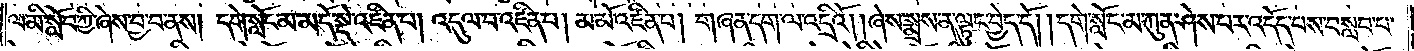ལ་མི་སློབ་ཀྱི་ཞེས་བྱ་བ་ནས། དགེ་སློང་མ་མདོ་སྡེ་འཛིན་པ། འདུལ་བ་འཛིན་པ། མ་མོ་འཛིན་པ། གཞན་དག་ལ་འདྲིའོ། །ཞེས་སྨྲས་ན་ལྟུང་བྱེད་དོ། །དགེ་སློང་མ་ཀུན་ཤེས་པར་འདོད་པས་བསླབ་པ་
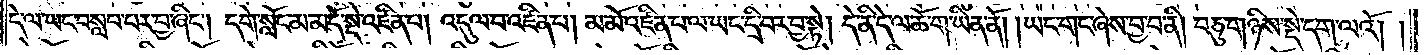དེ་ལ་ཡང་བསླབ་པར་བྱ་ཞིང༌། དགེ་སློང་མ་མདོ་སྡེ་འཛིན་པ། འདུལ་བ་འཛིན་པ། མ་མོ་འཛིན་པ་ལ་ཡང་དྲི་བར་བྱ་སྟེ། དེ་ནི་དེ་ལ་ཆོ་ག་ཡིན་ནོ། །ཡང་གང་ཞེས་བྱ་བ་ནི། བཅུ་གཉིས་སྡེ་དག་ལའོ། །
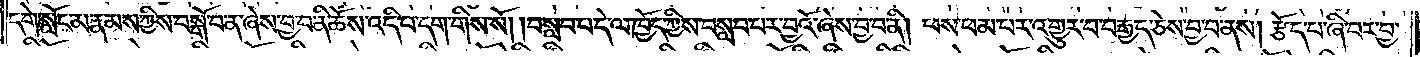དགེ་སློང་མ་རྣམས་ཀྱིས་བསྒོ་བ་ན་ཞེས་བྱ་བ་ནི་ཆོས་འདི་པ་དག་གིས་སོ། །བསླབ་པ་དེ་ལ་ཁྱོད་ཀྱིས་བསླབ་པར་བྱའོ་ཞེས་བྱ་བ་ནི། ཕས་ཕམ་པར་འགྱུར་བ་བརྒྱད་ཅེས་བྱ་བ་ནས། རྩོད་པ་ཞི་བར་བྱ་
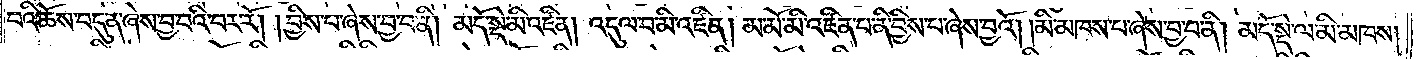བའི་ཆོས་བདུན་ཞེས་བྱ་བའི་བར་རོ། །བྱིས་པ་ཞེས་བྱ་བ་ནི། མདོ་སྡེ་མི་འཛིན། འདུལ་བ་མི་འཛིན། མ་མོ་མི་འཛིན་པ་ནི་བྱིས་པ་ཞེས་བྱའོ། །མི་མཁས་པ་ཞེས་བྱ་བ་ནི། མདོ་སྡེ་ལ་མི་མཁས།
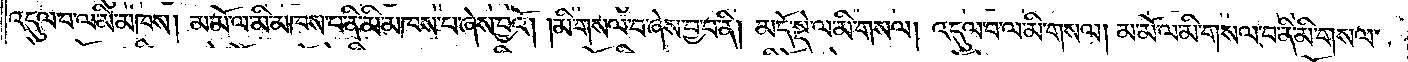འདུལ་བ་ལ་མི་མཁས། མ་མོ་ལ་མི་མཁས་པ་ནི་མི་མཁས་པ་ཞེས་བྱའོ། །མི་གསལ་བ་ཞེས་བྱ་བ་ནི། མདོ་སྡེ་ལ་མི་གསལ། འདུལ་བ་ལ་མི་གསལ། མ་མོ་ལ་མི་གསལ་བ་ནི་མི་གསལ་
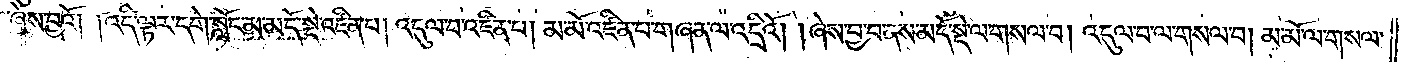བ་ཞེས་བྱའོ། །འདི་ལྟར་དགེ་སློང་མ་མདོ་སྡེ་འཛིན་པ། འདུལ་བ་འཛིན་པ། མ་མོ་འཛིན་པ་གཞན་ལ་འདྲིའོ། །ཞེས་བྱ་བ་ནས་མདོ་སྡེ་ལ་གསལ་བ། འདུལ་བ་ལ་གསལ་བ། མ་མོ་ལ་གསལ་
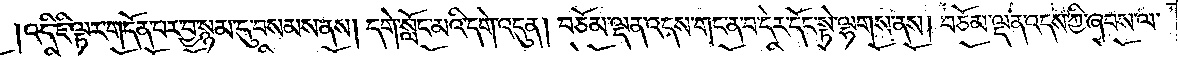འདི་ཇི་ལྟར་གདོན་པར་བྱ་སྙམ་དུ་བསམས་ནས། དགེ་སློང་མའི་དགེ་འདུན། བཅོམ་ལྡན་འདས་གང་ན་བ་དེར་དོང་སྟེ་ལྷགས་ནས། བཅོམ་ལྡན་འདས་ཀྱི་ཞབས་ལ་
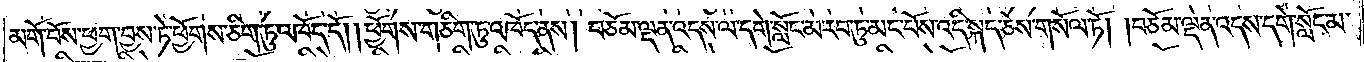མགོ་བོས་ཕྱག་བྱས་ཏེ་ཕྱོགས་ཅིག་ཏུ་འཁོད་དོ། །ཕྱོགས་གཅིག་ཏུ་འཁོད་ནས། བཅོམ་ལྡན་འདས་ལ་དགེ་སློང་མ་རབ་ཏུ་མང་པོས་འདི་སྐད་ཅེས་གསོལ་ཏོ། །བཅོམ་ལྡན་འདས་དགེ་སློང་མ་
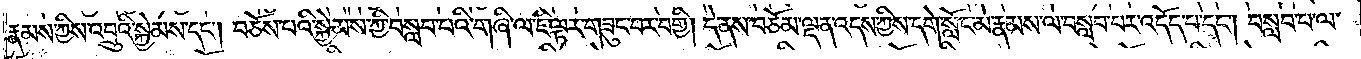རྣམས་ཀྱིས་འབྲུའི་སྐྱེམས་དང༌། བཅོས་པའི་སྐྱེམས་ཀྱི་བསླབ་པའི་གཞི་ལ་ཇི་ལྟར་གཟུང་བར་བགྱི། དེ་ནས་བཅོམ་ལྡན་འདས་ཀྱིས་དགེ་སློང་མ་རྣམས་ལ་བསླབ་པར་འདོད་པ་དང༌། བསླབ་པ་ལ་
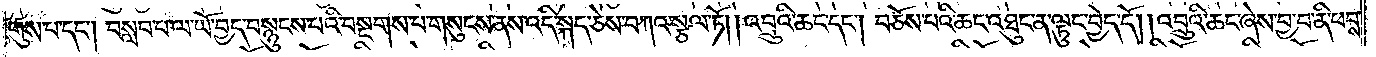གུས་པ་དང༌། བསླབ་པ་ལ་ཡོ་བྱད་བསྙུངས་པའི་བསྔགས་པ་གསུངས་ནས་འདི་སྐད་ཅེས་བཀའ་སྩལ་ཏོ། །འབྲུའི་ཆང་དང༌། བཅོས་པའི་ཆང་འཐུང་ན་ལྟུང་བྱེད་དོ། །འབྲུའི་ཆང་ཞེས་བྱ་བ་ནི་ཕབས་
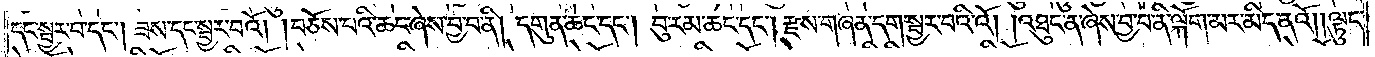དང་སྦྱར་བ་དང༌། ཟས་དང་སྦྱར་བའོ། །བཅོས་པའི་ཆང་ཞེས་བྱ་བ་ནི། དགུན་ཆང་དང༌། བུ་རམ་ཆང་དང༌། རྫས་གཞན་དག་སྦྱར་བའི་འོ། །འཐུང་ན་ཞེས་བྱ་བ་ནི་ལྐོག་མར་མིད་ནའོ། །ལྟུང་
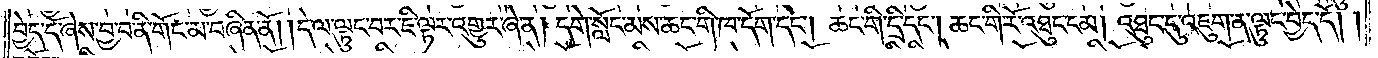བྱེད་དོ་ཞེས་བྱ་བ་ནི་གོང་མ་བཞིན་ནོ། །དེ་ལ་ལྟུང་བར་ཇི་ལྟར་འགྱུར་ཞེ་ན། དགེ་སློང་མས་ཆང་གི་ཁ་དོག་དང༌། ཆང་གི་དྲི་དང༌། ཆང་གི་རོ་འཐུང་ངམ། འཐུང་དུ་འཇུག་ན་ལྟུང་བྱེད་དོ། །
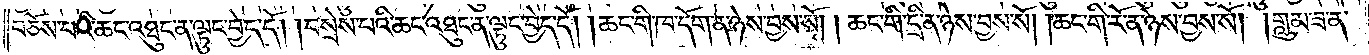བཅོས་པའི་ཆང་འཐུང་ན་ལྟུང་བྱེད་དོ། །བསྲེས་པའི་ཆང་འཐུང་ན་ལྟུང་བྱེད་དོ། །ཆང་གི་ཁ་དོག་ན་ཉེས་བྱས་སོ། ཆང་གི་དྲི་ན་ཉེས་བྱས་སོ། །ཆང་གི་རོ་ན་ཉེས་བྱས་སོ། །གླུམ་ཟ་ན་
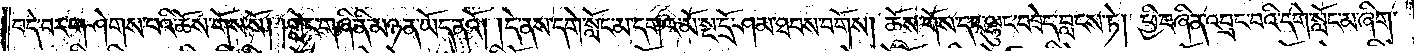བདེ་བར་གཤེགས་པའི་ཆོས་གོས་སོ། །གླེང་གཞི་ནི་མཉན་ཡོད་ནའོ། །དེ་ནས་དགེ་སློང་མ་དགའ་མོ་སྔ་དྲོ་ཤམ་ཐབས་བགོས། ཆོས་གོས་དང་ལྷུང་བཟེད་བླངས་ཏེ། ཕྱི་བཞིན་འབྲང་བའི་དགེ་སློང་མ་ཞིག་
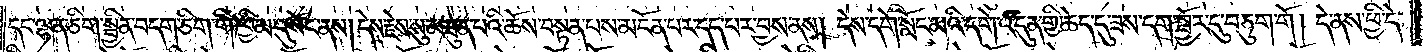དང་ལྷན་ཅིག་སྦྱིན་བདག་ཅིག་གི་ཁྱིམ་དུ་སོང་ནས། དེས་རྗེས་སུ་མཐུན་པའི་ཆོས་བསྟན་པས་མངོན་པར་དད་པར་བྱས་ནས། དེས་དགེ་སློང་མའི་དགེ་འདུན་གྱི་ཆེད་དུ་ཟས་དག་སྦྱོར་དུ་བཅུག་གོ། དེ་ནས་ཕྱི་དེ་
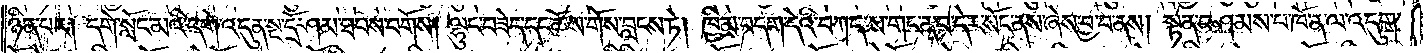ཉིན་པར། དགེ་སློང་མའི་དགེ་འདུན་སྔ་དྲོ་ཤམ་ཐབས་བགོས། ལྷུང་བཟེད་དང་ཆོས་གོས་བླངས་ཏེ། ཁྱིམ་བདག་དེའི་བཀད་ས་གང་ན་བ་དེར་སོང་ནས་ཞེས་བྱ་བ་ནས། སྟན་བཤམས་པ་ཁོ་ན་ལ་འདུག་
